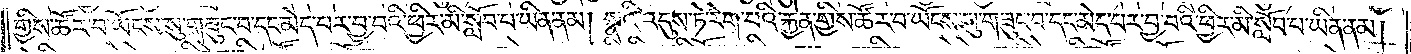གྱིས་ཚོར་བ་ཡོངས་སུ་གཟུང་བ་དང་མེད་པར་བྱ་བའི་ཕྱིར་མི་སློབ་པ་ཡིན་ནམ། སྣའི་འདུས་ཏེ་རེག་པའི་རྐྱེན་གྱིས་ཚོར་བ་ཡོངས་སུ་གཟུང་བ་དང་མེད་པར་བྱ་བའི་ཕྱིར་མི་སློབ་པ་ཡིན་ནམ།
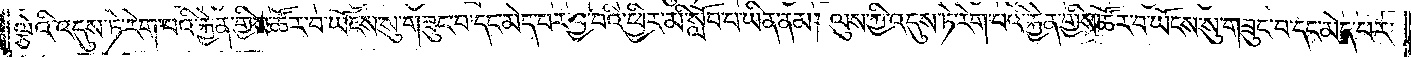ལྕེའི་འདུས་ཏེ་རེག་པའི་རྐྱེན་གྱིས་ཚོར་བ་ཡོངས་སུ་གཟུང་བ་དང་མེད་པར་བྱ་བའི་ཕྱིར་མི་སློབ་པ་ཡིན་ནམ། ལུས་ཀྱི་འདུས་ཏེ་རེག་པའི་རྐྱེན་གྱིས་ཚོར་བ་ཡོངས་སུ་གཟུང་བ་དང་མེད་པར་
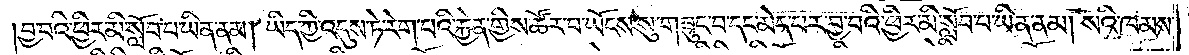བྱ་བའི་ཕྱིར་མི་སློབ་པ་ཡིན་ནམ། ཡིད་ཀྱི་འདུས་ཏེ་རེག་པའི་རྐྱེན་གྱིས་ཚོར་བ་ཡོངས་སུ་གཟུང་བ་དང་མེད་པར་བྱ་བའི་ཕྱིར་མི་སློབ་པ་ཡིན་ནམ། སའི་ཁམས་
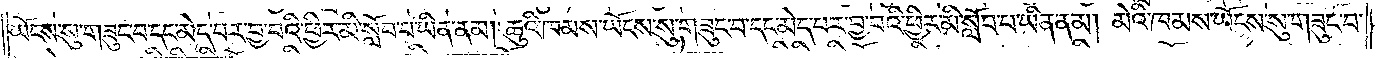ཡོངས་སུ་གཟུང་བ་དང་མེད་པར་བྱ་བའི་ཕྱིར་མི་སློབ་པ་ཡིན་ནམ། ཆུའི་ཁམས་ཡོངས་སུ་གཟུང་བ་དང་མེད་པར་བྱ་བའི་ཕྱིར་མི་སློབ་པ་ཡིན་ནམ། མེའི་ཁམས་ཡོངས་སུ་གཟུང་བ་
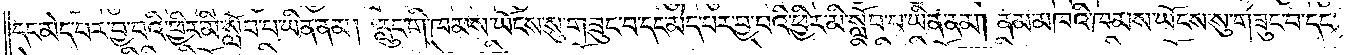དང་མེད་པར་བྱ་བའི་ཕྱིར་མི་སློབ་པ་ཡིན་ནམ། རླུང་གི་ཁམས་ཡོངས་སུ་གཟུང་བ་དང་མེད་པར་བྱ་བའི་ཕྱིར་མི་སློབ་པ་ཡིན་ནམ། ནམ་མཁའི་ཁམས་ཡོངས་སུ་གཟུང་བ་དང་
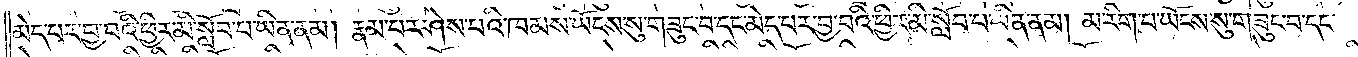མེད་པར་བྱ་བའི་ཕྱིར་མི་སློབ་པ་ཡིན་ནམ། རྣམ་པར་ཤེས་པའི་ཁམས་ཡོངས་སུ་གཟུང་བ་དང་མེད་པར་བྱ་བའི་ཕྱིར་མི་སློབ་པ་ཡིན་ནམ། མ་རིག་པ་ཡོངས་སུ་གཟུང་བ་དང་
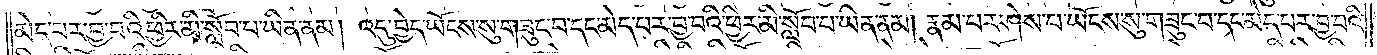མེད་པར་བྱ་བའི་ཕྱིར་མི་སློབ་པ་ཡིན་ནམ། འདུ་བྱེད་ཡོངས་སུ་གཟུང་བ་དང་མེད་པར་བྱ་བའི་ཕྱིར་མི་སློབ་པ་ཡིན་ནམ། རྣམ་པར་ཤེས་པ་ཡོངས་སུ་གཟུང་བ་དང་མེད་པར་བྱ་བའི་
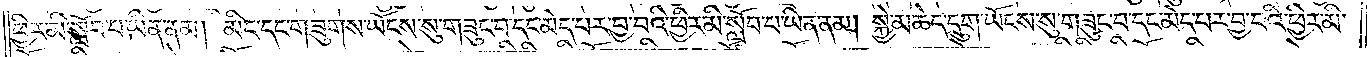ཕྱིར་མི་སློབ་པ་ཡིན་ནམ། མིང་དང་གཟུགས་ཡོངས་སུ་གཟུང་བ་དང་མེད་པར་བྱ་བའི་ཕྱིར་མི་སློབ་པ་ཡིན་ནམ། སྐྱེ་མཆེད་དྲུག་ཡོངས་སུ་གཟུང་བ་དང་མེད་པར་བྱ་བའི་ཕྱིར་མི་
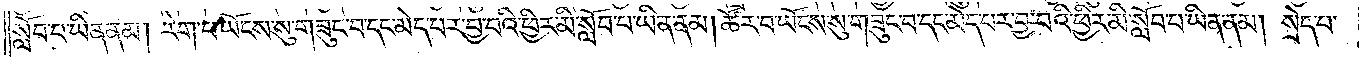སློབ་པ་ཡིན་ནམ། རེག་པ་ཡོངས་སུ་གཟུང་བ་དང་མེད་པར་བྱ་བའི་ཕྱིར་མི་སློབ་པ་ཡིན་ནམ། ཚོར་བ་ཡོངས་སུ་གཟུང་བ་དང་མེད་པར་བྱ་བའི་ཕྱིར་མི་སློབ་པ་ཡིན་ནམ། སྲེད་པ་
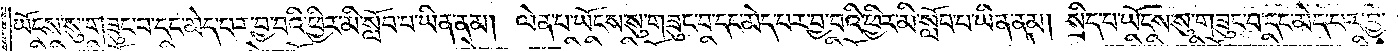ཡོངས་སུ་གཟུང་བ་དང་མེད་པར་བྱ་བའི་ཕྱིར་མི་སློབ་པ་ཡིན་ནམ། ལེན་པ་ཡོངས་སུ་གཟུང་བ་དང་མེད་པར་བྱ་བའི་ཕྱིར་མི་སློབ་པ་ཡིན་ནམ། སྲིད་པ་ཡོངས་སུ་གཟུང་བ་དང་མེད་པར་བྱ་
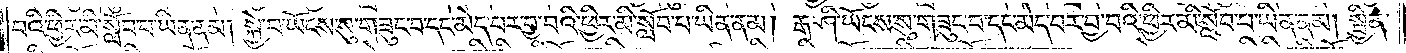བའི་ཕྱིར་མི་སློབ་པ་ཡིན་ནམ། སྐྱེ་བ་ཡོངས་སུ་གཟུང་བ་དང་མེད་པར་བྱ་བའི་ཕྱིར་མི་སློབ་པ་ཡིན་ནམ། རྒ་ཤི་ཡོངས་སུ་གཟུང་བ་དང་མེད་པར་བྱ་བའི་ཕྱིར་མི་སློབ་པ་ཡིན་ནམ། སྦྱིན་
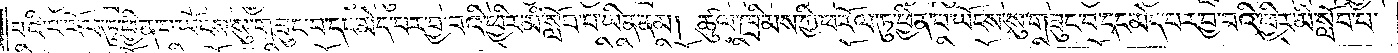པའི་ཕ་རོལ་ཏུ་ཕྱིན་པ་ཡོངས་སུ་གཟུང་བ་དང་མེད་པར་བྱ་བའི་ཕྱིར་མི་སློབ་པ་ཡིན་ནམ། ཚུལ་ཁྲིམས་ཀྱི་ཕ་རོལ་ཏུ་ཕྱིན་པ་ཡོངས་སུ་གཟུང་བ་དང་མེད་པར་བྱ་བའི་ཕྱིར་མི་སློབ་པ་
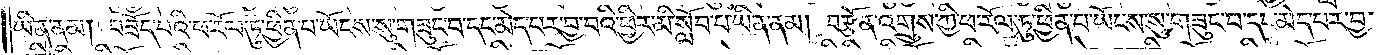ཡིན་ནམ། བཟོད་པའི་ཕ་རོལ་ཏུ་ཕྱིན་པ་ཡོངས་སུ་གཟུང་བ་དང་མེད་པར་བྱ་བའི་ཕྱིར་མི་སློབ་པ་ཡིན་ནམ། བརྩོན་འགྲུས་ཀྱི་ཕ་རོལ་ཏུ་ཕྱིན་པ་ཡོངས་སུ་གཟུང་བ་དང་མེད་པར་བྱ་
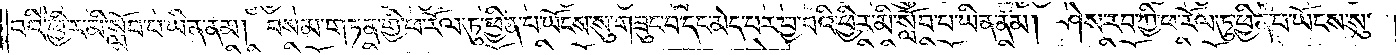བའི་ཕྱིར་མི་སློབ་པ་ཡིན་ནམ། བསམ་གཏན་གྱི་ཕ་རོལ་ཏུ་ཕྱིན་པ་ཡོངས་སུ་གཟུང་བ་དང་མེད་པར་བྱ་བའི་ཕྱིར་མི་སློབ་པ་ཡིན་ནམ། ཤེས་རབ་ཀྱི་ཕ་རོལ་ཏུ་ཕྱིན་པ་ཡོངས་སུ་
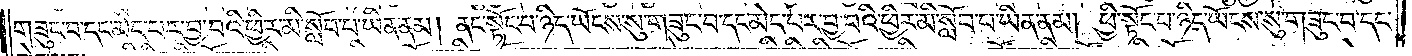གཟུང་བ་དང་མེད་པར་བྱ་བའི་ཕྱིར་མི་སློབ་པ་ཡིན་ནམ། ནང་སྟོང་པ་ཉིད་ཡོངས་སུ་གཟུང་བ་དང་མེད་པར་བྱ་བའི་ཕྱིར་མི་སློབ་པ་ཡིན་ནམ། ཕྱི་སྟོང་པ་ཉིད་ཡོངས་སུ་གཟུང་བ་དང་
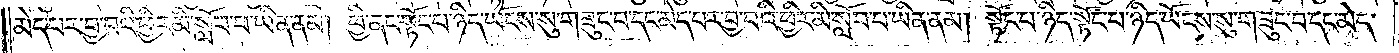མེད་པར་བྱ་བའི་ཕྱིར་མི་སློབ་པ་ཡིན་ནམ། ཕྱི་ནང་སྟོང་པ་ཉིད་ཡོངས་སུ་གཟུང་བ་དང་མེད་པར་བྱ་བའི་ཕྱིར་མི་སློབ་པ་ཡིན་ནམ། སྟོང་པ་ཉིད་སྟོང་པ་ཉིད་ཡོངས་སུ་གཟུང་བ་དང་མེད་
